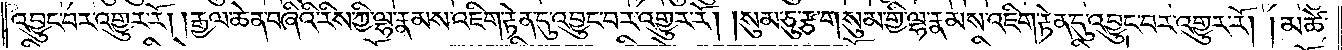འབྱུང་བར་འགྱུར་རོ། །རྒྱལ་ཆེན་བཞིའི་རིས་ཀྱི་ལྷ་རྣམས་འཇིག་རྟེན་དུ་འབྱུང་བར་འགྱུར་རོ། །སུམ་ཅུ་རྩ་གསུམ་གྱི་ལྷ་རྣམས་འཇིག་རྟེན་དུ་འབྱུང་བར་འགྱུར་རོ། །མཚེ་
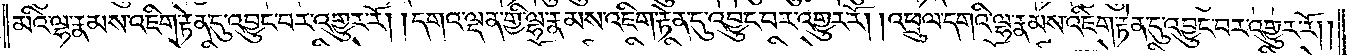མའི་ལྷ་རྣམས་འཇིག་རྟེན་དུ་འབྱུང་བར་འགྱུར་རོ། །དགའ་ལྡན་གྱི་ལྷ་རྣམས་འཇིག་རྟེན་དུ་འབྱུང་བར་འགྱུར་རོ། །འཕྲུལ་དགའི་ལྷ་རྣམས་འཇིག་རྟེན་དུ་འབྱུང་བར་འགྱུར་རོ། །
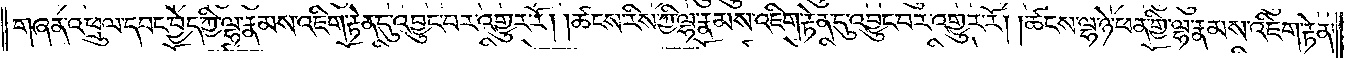གཞན་འཕྲུལ་དབང་བྱེད་ཀྱི་ལྷ་རྣམས་འཇིག་རྟེན་དུ་འབྱུང་བར་འགྱུར་རོ། །ཚངས་རིས་ཀྱི་ལྷ་རྣམས་འཇིག་རྟེན་དུ་འབྱུང་བར་འགྱུར་རོ། །ཚངས་ལྷ་ཉེ་ཕན་གྱི་ལྷ་རྣམས་འཇིག་རྟེན་
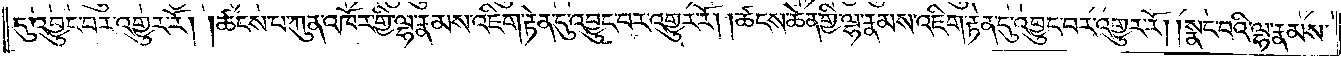དུ་འབྱུང་བར་འགྱུར་རོ། །ཚངས་བ་ཀུན་འཁོར་གྱི་ལྷ་རྣམས་འཇིག་རྟེན་དུ་འབྱུང་བར་འགྱུར་རོ། །ཚངས་ཆེན་གྱི་ལྷ་རྣམས་འཇིག་རྟེན་དུ་འབྱུང་བར་འགྱུར་རོ། །སྣང་བའི་ལྷ་རྣམས་
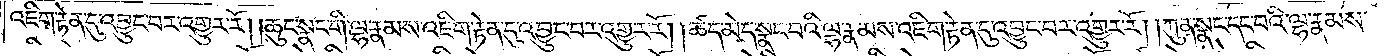འཇིག་རྟེན་དུ་འབྱུང་བར་འགྱུར་རོ། ཆུང་སྣང་གི་ལྷ་རྣམས་འཇིག་རྟེན་དུ་འབྱུང་བར་འགྱུར་རོ། །ཚད་མེད་སྣང་བའི་ལྷ་རྣམས་འཇིག་རྟེན་དུ་འབྱུང་བར་འགྱུར་རོ། །ཀུན་སྣང་དང་བའི་ལྷ་རྣམས་
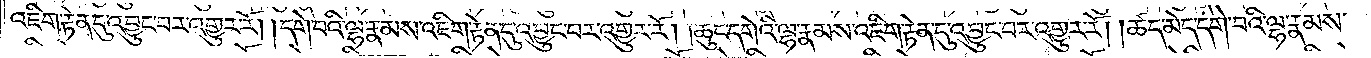འཇིག་རྟེན་དུ་འབྱུང་བར་འགྱུར་རོ། །དགེ་བའི་ལྷ་རྣམས་འཇིག་རྟེན་དུ་འབྱུང་བར་འགྱུར་རོ། །ཆུང་དགེའི་ལྷ་རྣམས་འཇིག་རྟེན་དུ་འབྱུང་བར་འགྱུར་རོ། །ཚད་མེད་དགེ་བའི་ལྷ་རྣམས་
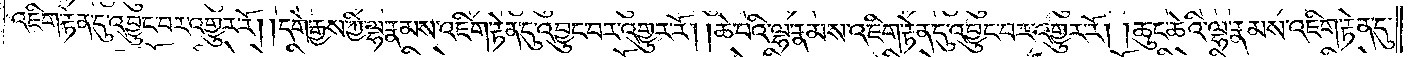འཇིག་རྟེན་དུ་འབྱུང་བར་འགྱུར་རོ། །དགེ་རྒྱས་ཀྱི་ལྷ་རྣམས་འཇིག་རྟེན་དུ་འབྱུང་བར་འགྱུར་རོ། །ཆེ་བའི་ལྷ་རྣམས་འཇིག་རྟེན་དུ་འབྱུང་བར་འགྱུར་རོ། །ཆུང་ཆེའི་ལྷ་རྣམས་འཇིག་རྟེན་དུ་
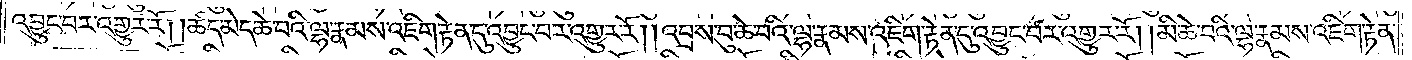འབྱུང་བར་འགྱུར་རོ། །ཚད་མེད་ཆེ་བའི་ལྟ་རྣམས་འཇིག་རྟེན་དུ་འབྱུང་བར་འགྱུར་རོ། །འབྲས་བུ་ཆེ་བའི་ལྷ་རྣམས་འཇིག་རྟེན་དུ་འབྱུང་བར་འགྱུར་རོ། །མི་ཆེ་བའི་ལྷ་རྣམས་འཇིག་རྟེན་
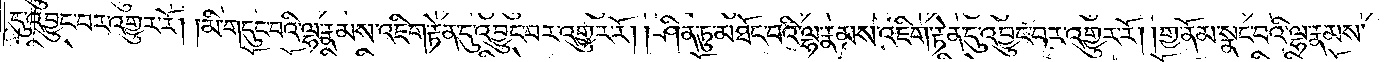དུ་འབྱུང་བར་འགྱུར་རོ། །མི་གདུང་བའི་ལྷ་རྣམས་འཇིག་རྟེན་དུ་འབྱུང་བར་འགྱུར་རོ། །ཤིན་ཏུ་མཐོང་བའི་ལྷ་རྣམས་འཇིག་རྟེན་དུ་འབྱུང་བར་འགྱུར་རོ། །གྱ་ནོམ་སྣང་བའི་ལྷ་རྣམས་
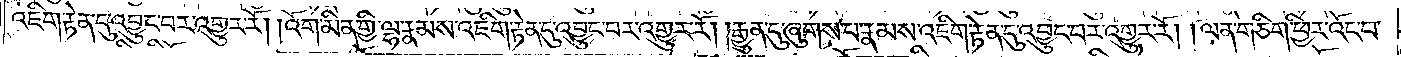འཇིག་རྟེན་དུ་འབྱུང་བར་འགྱུར་རོ། །འོག་མིན་གྱི་ལྷ་རྣམས་འཇིག་རྟེན་དུ་འབྱུང་བར་འགྱུར་རོ། །རྒྱུན་དུ་ཞུགས་པ་རྣམས་འཇིག་རྟེན་དུ་འབྱུང་བར་འགྱུར་རོ། །ལན་གཅིག་ཕྱིར་འོང་བ་
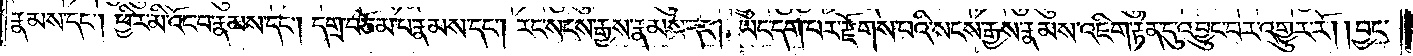རྣམས་དང༌། ཕྱིར་མི་འོང་བ་རྣམས་དང༌། དགྲ་བཅོམ་པ་རྣམས་དང༌། རང་སངས་རྒྱས་རྣམས་དང༌། ཡང་དག་པར་རྫོགས་པའི་སངས་རྒྱས་རྣམས་འཇིག་རྟེན་དུ་འབྱུང་བར་འགྱུར་རོ། །བྱང་
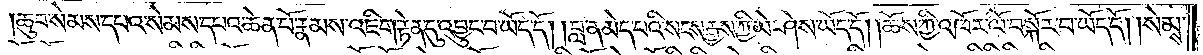ཆུབ་སེམས་དཔའ་སེམས་དཔའ་ཆེན་པོ་རྣམས་འཇིག་རྟེན་དུ་འབྱུང་བ་ཡོད་དོ། །བླ་ན་མེད་པའི་སངས་རྒྱས་ཀྱི་ཡེ་ཤེས་ཡོད་དོ། །ཆོས་ཀྱི་འཁོར་ལོ་སྐོར་བ་ཡོད་དོ། །སེམས་
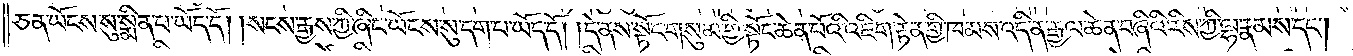ཅན་ཡོངས་སུ་སྨིན་པ་ཡོད་དོ། །སངས་རྒྱས་ཀྱི་ཞིང་ཡོངས་སུ་དག་པ་ཡོད་དོ། །དེ་ནས་སྟོང་གསུམ་གྱི་སྟོང་ཆེན་པོའི་འཇིག་རྟེན་གྱི་ཁམས་འདི་ན་རྒྱལ་ཆེན་བཞིའི་རིས་ཀྱི་ལྷ་རྣམས་དང༌།
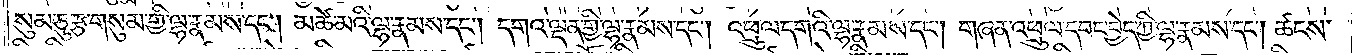སུམ་ཅུ་རྩ་གསུམ་གྱི་ལྷ་རྣམས་དང༌། མཚེ་མའི་ལྷ་རྣམས་དང༌། དགའ་ལྡན་གྱི་ལྷ་རྣམས་དང༌། འཕྲུལ་དགའི་ལྷ་རྣམས་དང༌། གཞན་འཕྲུལ་དབང་བྱེད་ཀྱི་ལྷ་རྣམས་དང༌། ཚངས་
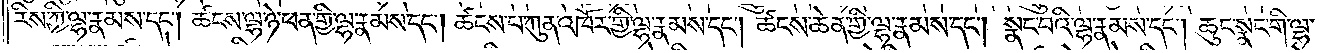རིས་ཀྱི་ལྷ་རྣམས་དང༌། ཚངས་ལྷ་ཉེ་ཕན་གྱི་ལྷ་རྣམས་དང༌། ཚངས་པ་ཀུན་འཁོར་གྱི་ལྷ་རྣམས་དང༌། ཚངས་ཆེན་གྱི་ལྷ་རྣམས་དང༌། སྣང་བའི་ལྷ་རྣམས་དང༌། ཆུང་སྣང་གི་ལྷ་
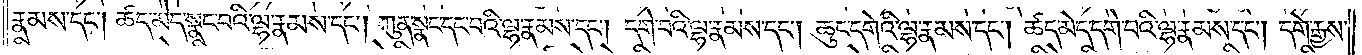རྣམས་དང༌། ཚད་མེད་སྣང་བའི་ལྷ་རྣམས་དང༌། ཀུན་སྣང་དང་བའི་ལྷ་རྣམས་དང༌། དགེ་བའི་ལྷ་རྣམས་དང༌། ཆུང་དགེའི་ལྷ་རྣམས་དང༌། ཚད་མེད་དགེ་བའི་ལྷ་རྣམས་དང༌། དགེ་རྒྱས་
